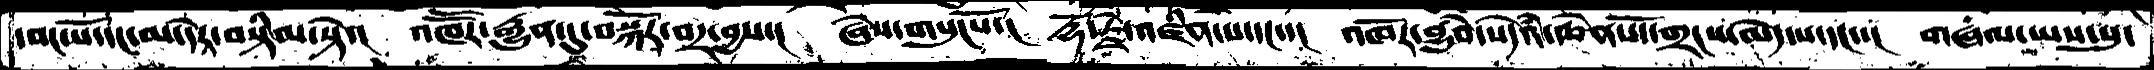དབང་པོ་དང་མ་དེར་བསྟིམ་སྟེ་།  འཁཽར་རྒྱུན་དུ་བསྐོར་བར་བྱས་།  ཞེས་གསུངསོ་།  རྡོ་རྗེ་འཛིན་པ་དང་་།  འཁོར་བྱུཾབ་སེདའཾ་ཆེན་པོ་གྲངས་མེད་པ་དང་་།  གཞལ་ཡས་སུ་
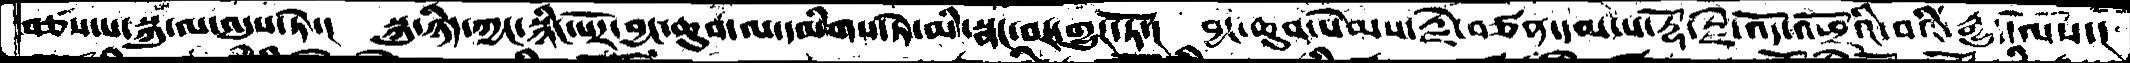བཙས་པ་སྐུ་ལ་འདུས་ཏེ་།  སྐུ་ཉིད་ཀྱང་སྙིང་པོར་བྱང་ཆུབ་ལ་དམིགས་ཏེ་མི་སྣང་བར་གྱུར་ཏོ་།  བྱང་ཆུབ་སེམས་རྗེ་བཙན་དམ་པ་རྡོ་རྗེ་འོད་འཕྲོའི་བའི་རྒྱུད་ལས་།
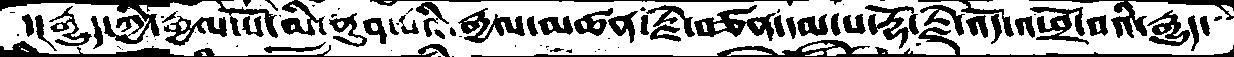་།རྒྱུད་ཀྱི་རྒྱལ་པོ་མི་ནུབ་པའི་རྒྱལ་མཚན་རྗེ་བཙན་དམ་པ་རྡོ་རྗེ་འོད་འཕྲོ་བའི་རྒྱུད་
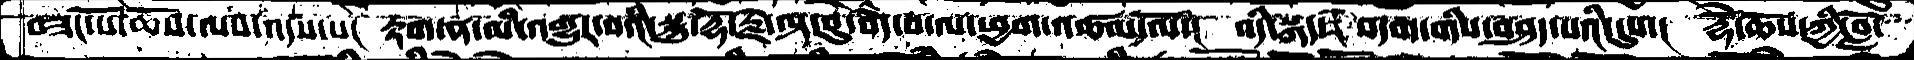བཟང་པོ་ཆོས་ལས་འདས་པ།  རྟག་ན་མི་འགྱུར་བའི་སྐུ་རྡོ་རྗེ་ལྟ་བུ་བདེ་བ་ལ་ཕྱག་འཚལ་ལོ་།  འདི་སྐད་བདག་གིས་བཤད་པའི་དུས། རྡོེ་ཆོས་ཀྱི་བློ་
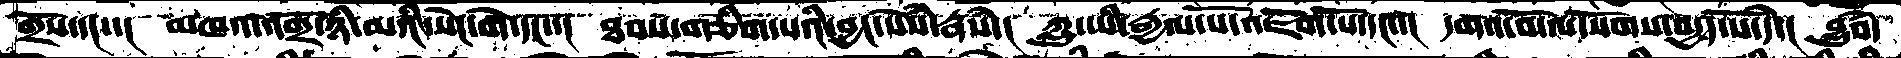གྲོས་དང་་།  མཁའ་འགྲོ་ཉི་མའི་སེང་གེ་དང་་།  ཐབས་གཅིག་པའི་བྱང་སེཾས་རྣཾས་།  ཀླུ་ཡི་རྒྱལ་པོ་འཇོག་པོ་དང་་།  དགའ་བོ་ལ་སོགས་བདྱད་པོ་དེ་།  བྱུཾབ་
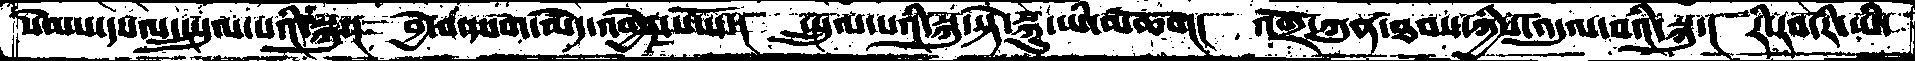སེམས་དཔལ་སྤྲུལ་པའི་སྐུ་།  བྱེ་བ་དཔག་མེད་འབྱེད་པ་པོ་།  སྤྲུལ་པའི་སྐུ་སྟེ་སྐུ་ཡི་མཆོག།  འགྲོ་ཀུན་ཐབས་ཀྱིས་འདུལ་བའི་སྐུ་།  རི་རབ་རི་ཡི་
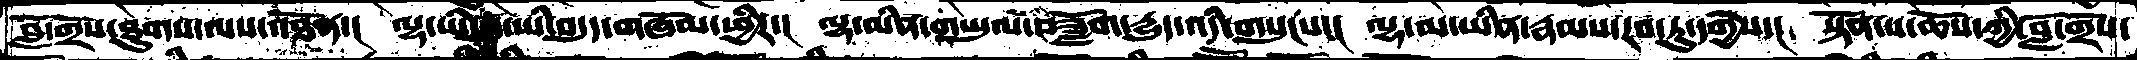བློ་གྲོས་ཐུགས་ལས་འཐོན་།  ལྷ་ཡི་བུ་ཡི་བདུད་གཞོམ་ཕྱིར་།  ལྷ་མིན་གཡུལ་བཟློག་དྱུད་འདི་གསུངས་།  ལྷ་མ་ཡིན་རྣམས་རབ་ཏུ་དགྱེས་།  སྟོན་པ་ཆོས་ཀྱི་བློ་གྲོས་
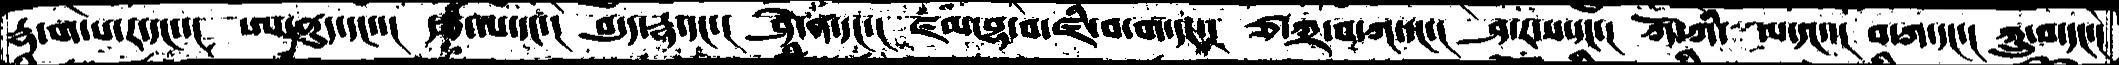རྣ་ག་པ་ར་དང་་།  ཨ་ནུད་དང་་།  རྩ་ལ་དང་། བདུད་རྣ་དང་།  ཤེ་ན་དང་།  ཛམ་བྷ་བ་ཛི་བ་ག་དང་།  ཙ་ཀྲ་བ་ཀ་དང་།  ཤ་ར་ས་དང་།  ཀོ་ཀི་ལ་དང་་། བ་ཀ་དང་།  ཀླུ་བ་དང་།
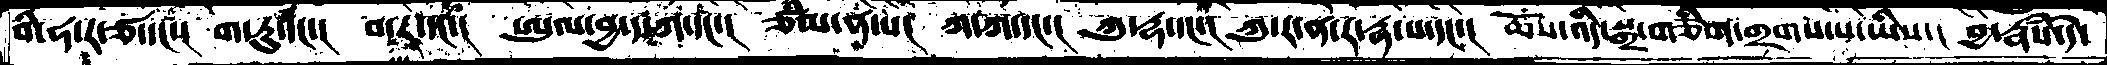བི་ཧ་ར་ཙ་དང་་།  ག་རུ་དང་།  བ་ར་དང་།  ཨུལ་བྱ་ད་ཀ་དང་།  ཙམ་ན་པ།  ཀ་ཀ་དང་། ཀུ་དྷ་ད་།  ཀུ་ར་ན་ར་རྣ་པ་དང་།  ཆོས་འདི་སྒྲ་གཅིག་གྲགས་པ་ཡིས་།  བྱ་རྣཾས་དེ་
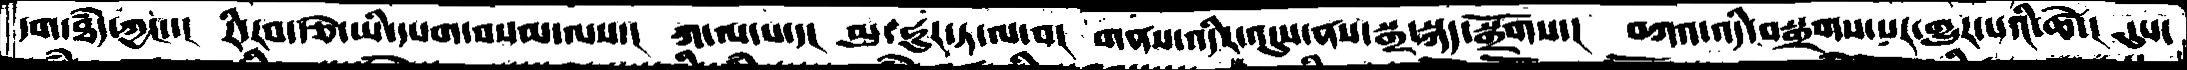དག་ཐཾད་ཀྱང་་།  རི་རབ་རྩེ་ཡི་དཔག་བསམ་ལས་། ཀ་ལ་པ་དང  མུ་ཧུར་ཏ་ལ་བ།  གནས་འདིར་འདུས་ནས་སྒྲ་སྐད་སྒྲོགས་།  བཀའ་འདི་བསྒྲགས་པར་གྱུར་པའི་ཚེ་།  དུས་
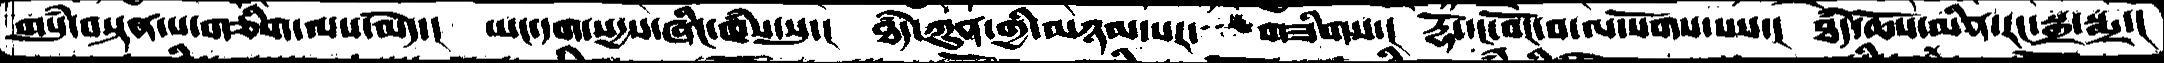གསུཾ་བསྟན་པ་གཅིག་ལས་མེད་།  ཡང་དག་སདྱས་ཞིང་ཁཾས་སུ་།  ཐཾད་ཀུན་གྱི་མཉམ་པར་  གཟིགས་།  རྡོ་དང་བོང་བ་ལ་སོགས་པས་།  ཐཾད་ཆོས་མིན་རང་སྒྲ་སྨྲ་།
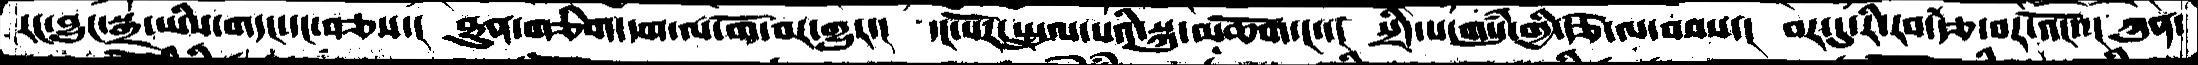རང་བྱུང་སྒྲ་ཡིས་གདང་དང་བཅས་།  ཐུན་གཅིག་དག་ལ་གོ་བར་འགྱུར་།  དང་པོར་སྤྲུལ་པའི་སྐུ་མཆོག་དང་་།  སྲིད་པ་གསུཾ་གྱི་རྩེ་ལ་བབས་།  བར་དུ་རི་རབ་རྩ་བར་འོང་་།  ཀུན་
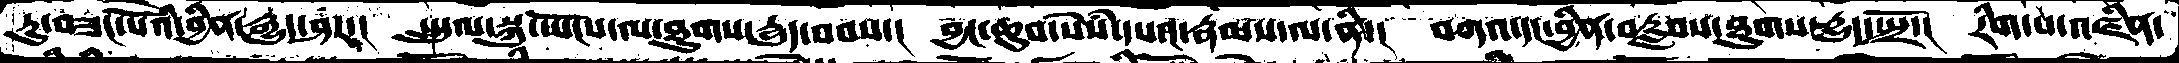ཏུ་བཟང་པོའི་བྱིན་རྒྱུད་ཤར་།  སྤྲུལ་སྐུ་ཡོངས་ལ་ཐུགས་རྒྱུད་བབས་།  བྱང་ཆུབ་སེཾས་དཔའ་རྣམས་ལ་ནི་།  བཀའ་དང་བྱིན་བརླབས་ཐུགས་དྱུད་སྤྲོ་།  རིག་པ་འཛིན་
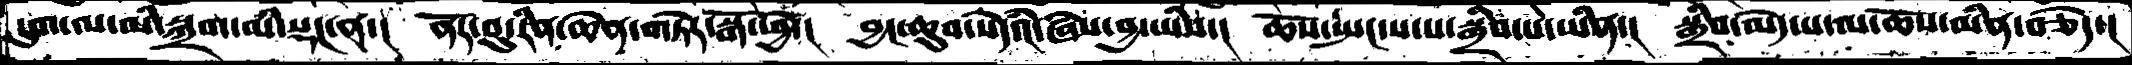དུག་ལ་མི་སྐྲག་མི་སྡང་ན་།  ནོར་བུ་རིན་ཆེན་གཏེར་སྒོ་ཕྱེ་།  བྱང་ཆུབ་སེདའཾ་ཞེས་བྱ་ཡིས་།  ཆོས་སྤང་ས་པ་སྒྲིབ་པ་ཡིན་།  སྒྲིབ་མེད་པ་ལ་ཆོས་མིན་བཅོད་།
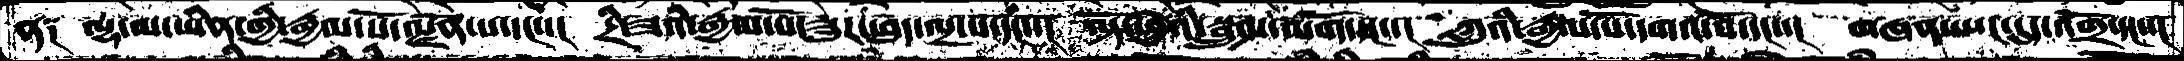ན༑  ལྷ་མ་ཡིན་གྱི་རྒྱལ་པོ་ལྗོན་པ་དང་།  དྲི་ཟའི་རྒྱལ་པོ་ཟུར་ཕུད་ལྔ་པ་དང་།  ལྟོ་ཕྱེའི་སྦྲུལ་མགོ་དང་།  ཀླུའི་རྒྱལ་པོ་དགའ་བོ་དང་་།  གཞན་ཡང་དུད་འགྲོ་དང་་།
